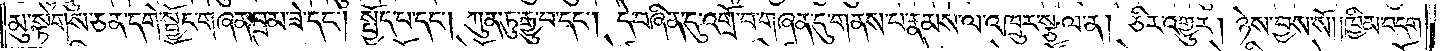མུ་སྟེགས་ཅན་དགེ་སྦྱོང་གཞན་བྲམ་ཟེ་དང༌། སྤྱོད་པ་དང༌། ཀུན་ཏུ་རྒྱུ་བ་དང༌། དེ་བཞིན་དུ་འགྲོ་བ་གཞན་དུ་གནས་པ་རྣམས་ལ་འཁྲུར་སྩལ་ན། ཅིར་འགྱུར། ཉེས་བྱས་སོ། །ཁྱིམ་བདག་
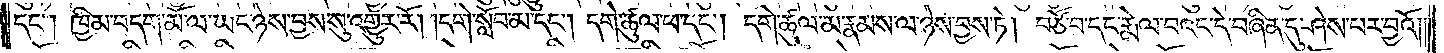དང༌། ཁྱིམ་བདག་མོ་ལ་ཡང་ཉེས་བྱས་སུ་འགྱུར་རོ། །དགེ་སློབ་མ་དང༌། དགེ་ཚུལ་ཕ་དང༌། དགེ་ཚུལ་མ་རྣམས་ལ་ཉེས་བྱས་ཏེ། བཙོ་བ་དང་རྨེལ་བའང་དེ་བཞིན་དུ་ཤེས་པར་བྱའོ།    །
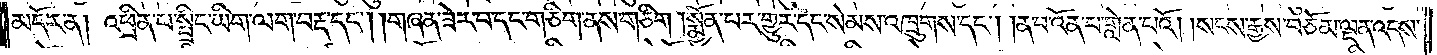མདོར་ན། འཕྲིན་པ་སྤྲིང་ཡིག་ལག་བརྡ་དང༌། །གཞན་ཟེར་བ་དང་གཅིག་ནས་གཅིག །སྨྱོན་པར་གྱུར་དང་སེམས་འཁྲུགས་དང༌། །ན་བ་འོན་པ་གླེན་པའོ། །སངས་རྒྱས་བཅོམ་ལྡན་འདས་
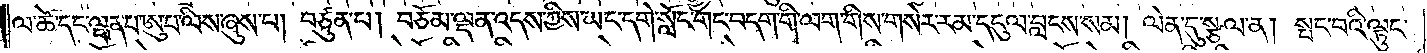ལ་ཚེ་དང་ལྡན་པ་ཨུ་པ་ལིས་ཞུས་པ། བཙུན་པ། བཅོམ་ལྡན་འདས་ཀྱིས་ཡང་དགེ་སློང་གང་བདག་གི་ལག་གིས་གསེར་རམ་དངུལ་བླངས་སམ། ལེན་དུ་སྩལ་ན། སྤང་བའི་ལྟུང་
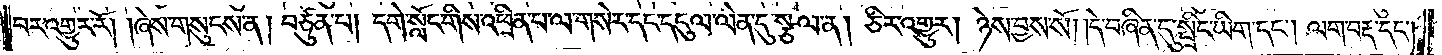བར་འགྱུར་རོ། །ཞེས་གསུངས་ན། བཙུན་པ། དགེ་སློང་གིས་འཕྲིན་པ་ལ་གསེར་དང་དངུལ་ལེན་དུ་སྩལ་ན། ཅིར་འགྱུར། ཉེས་བྱས་སོ། །དེ་བཞིན་དུ་སྤྲིང་ཡིག་དང༌། ལག་བརྡ་དང༌།
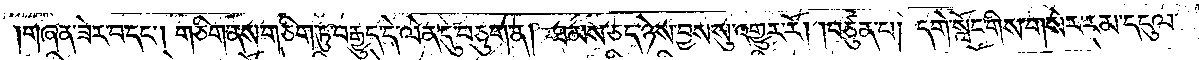གཞན་ཟེར་བ་དང༌། གཅིག་ནས་གཅིག་ཏུ་བརྒྱུད་དེ་ལེན་དུ་བཅུག་ན། ཐམས་ཅད་ཉེས་བྱས་སུ་འགྱུར་རོ། །བཙུན་པ། དགེ་སློང་གིས་གསེར་རམ་དངུལ་
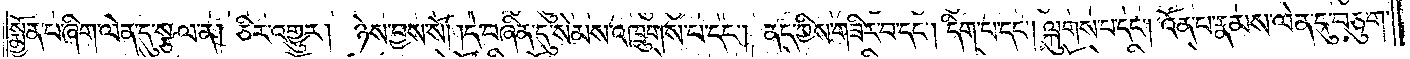སྨྱོན་པ་ཞིག་ལེན་དུ་སྩལ་ན། ཅིར་འགྱུར། ཉེས་བྱས་སོ། །དེ་བཞིན་དུ་སེམས་འཁྲུགས་པ་དང༌། ནད་ཀྱིས་གཟིར་བ་དང༌། དིག་པ་དང༌། ལྐུགས་པ་དང༌། འོན་པ་རྣམས་ལེན་དུ་བཅུག་
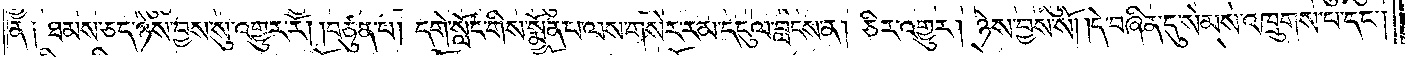ན༑ ཐམས་ཅད་ཉེས་བྱས་སུ་འགྱུར་རོ། །བཙུན་པ། དགེ་སློང་གིས་སྨྱོན་པ་ལས་གསེར་རམ་དངུལ་བླངས་ན། ཅིར་འགྱུར། ཉེས་བྱས་སོ། །དེ་བཞིན་དུ་སེམས་འཁྲུགས་པ་དང༌།
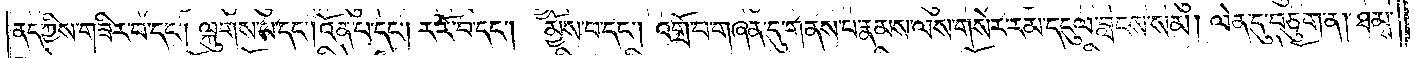ནད་ཀྱིས་གཟིར་བ་དང༌། ལྐུགས་པ་དང༌། འོན་པ་དང༌། ར་རོ་བ་དང༌། མྱོས་པ་དང༌། འགྲོ་བ་གཞན་དུ་གནས་པ་རྣམས་ལས་གསེར་རམ་དངུལ་བླངས་སམ། ལེན་དུ་བཅུག་ན། ཐམས་
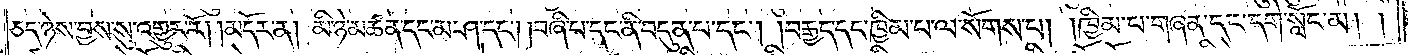ཅད་ཉེས་བྱས་སུ་འགྱུར་རོ། །མདོར་ན། མི་ཉེ་མཚན་དང་མ་ཤ་དང༌། །བཞི་པ་དང་ནི་བདུན་པ་དང༌། །བརྒྱད་དང་ཁྱིམ་པ་ལ་སོགས་པ། །ཁྱིམ་པ་གཞན་དང་དགེ་སློང་མ། །
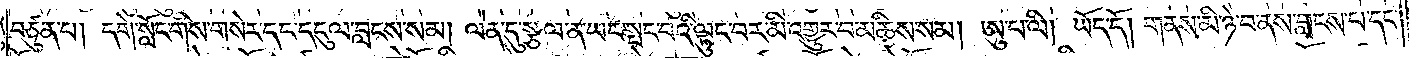བཙུན་པ། དགེ་སློང་གིས་གསེར་དང་དངུལ་བླངས་སམ། ལེན་དུ་སྩལ་ན་ཡང་སྤང་བའི་ལྟུང་བར་མི་འགྱུར་བ་མཆིས་སམ། ཨུ་པ་ལི། ཡོད་དོ། །གནས་མི་ཉེ་བ་ནས་བླངས་པ་དང༌།
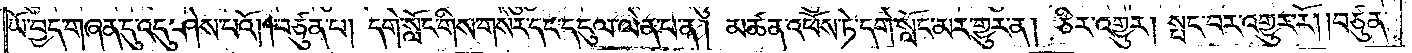ཡོ་བྱད་གཞན་དུ་འདུ་ཤེས་པའོ། །བཙུན་པ། དགེ་སློང་གིས་གསེར་དང་དངུལ་ལེན་པ་ན། མཚན་འཕོས་ཏེ་དགེ་སློང་མར་གྱུར་ན། ཅིར་འགྱུར། སྤང་བར་འགྱུར་རོ། །བཙུན་
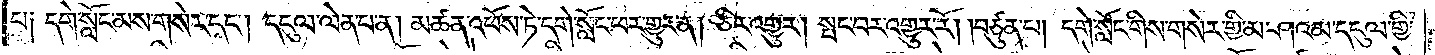པ༑ དགེ་སློང་མས་གསེར་དང༌། དངུལ་ལེན་པ་ན། མཚན་འཕོས་ཏེ་དགེ་སློང་ཕར་གྱུར་ན། ཅིར་འགྱུར། སྤང་བར་འགྱུར་རོ། །བཙུན་པ། དགེ་སློང་གིས་གསེར་གྱི་མ་ཤའམ་དངུལ་གྱི་
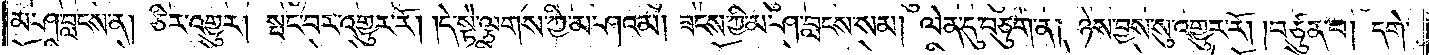མ་ཤ་བླངས་ན། ཅིར་འགྱུར། སྤང་བར་འགྱུར་རོ། །དེ་སྟེ་ལྕགས་ཀྱི་མ་ཤའམ། ཟངས་ཀྱི་མ་ཤ་བླངས་སམ། ལེན་དུ་བཅུག་ན། ཉེས་བྱས་སུ་འགྱུར་རོ། །བཙུན་པ། དགེ་
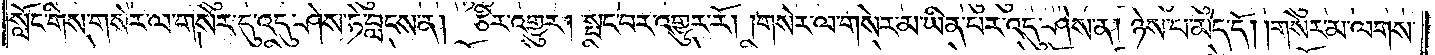སློང་གིས་གསེར་ལ་གསེར་དུ་འདུ་ཤེས་ཏེ་བླངས་ན། ཅིར་འགྱུར། སྤང་བར་འགྱུར་རོ། །གསེར་ལ་གསེར་མ་ཡིན་པར་འདུ་ཤེས་ན། ཉེས་པ་མེད་དོ། །གསེར་མ་ལགས་
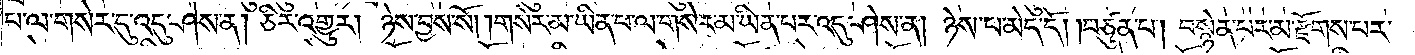པ་ལ་གསེར་དུ་འདུ་ཤེས་ན། ཅིར་འགྱུར། ཉེས་བྱས་སོ། །གསེར་མ་ཡིན་པ་ལ་གསེར་མ་ཡིན་པར་འདུ་ཤེས་ན། ཉེས་པ་མེད་དོ། །བཙུན་པ། བསྙེན་པར་མ་རྫོགས་པར་
